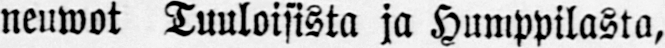neuwot Luuloisista ja Humppilasta,
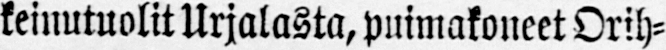keinutuolit Urjalasta, puimakoneet Orih-
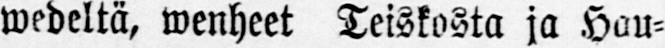wedeltä, wenheet Teiskosta ja Hau-
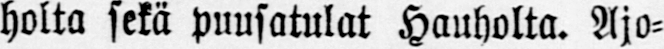holta sekä puusatulat Hauholta. Ajo-
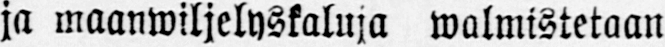ja maanwiljelyskaluja walmistetaan
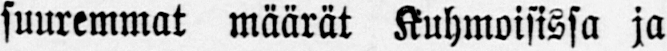suuremmat määrät Kuhmoisissa ja
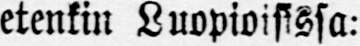etenkin Luopioisissa:
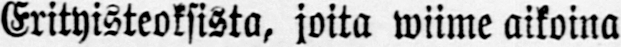Erityisteoksista, joita wiime aikoina
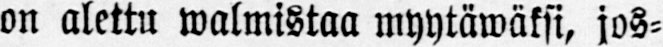on alettu valmistaa myytäwäksi, jos-
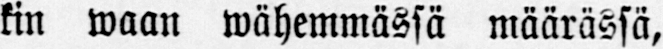kin waan wähemmässä määrässä,
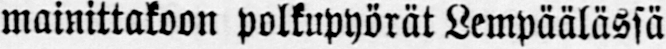mainittakoon polkupyörät Lempäälässä
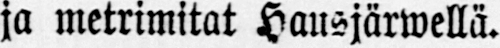ja metrimitat Hausjärwellä.
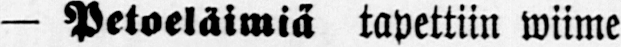— Petoeläimiä tapettiin wiime
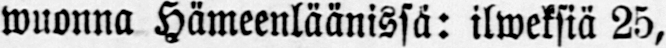wuonna Hämeenläänissä: ilweksiä 25,
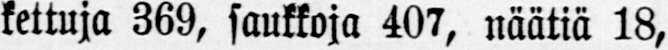kettuja 369, saukkoja 407, näätiä 18,
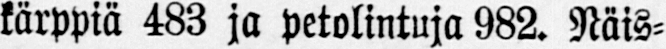kärppiä 483 ja petolintuja 982. Näis-
